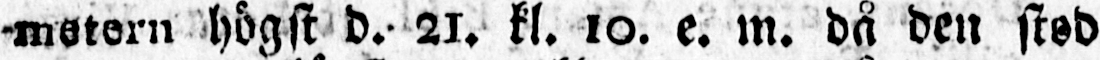metern högst d. 21. kl. 10. e. m. då den stod
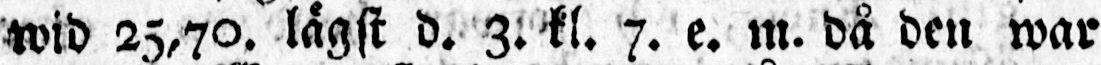wid 25,70. lågst d. 3. kl. 7. e. m. då den war
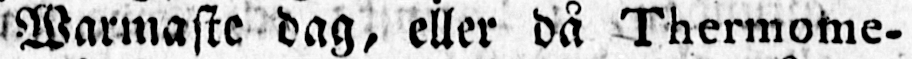24,72. Warmaste dag, eller då Thermome-
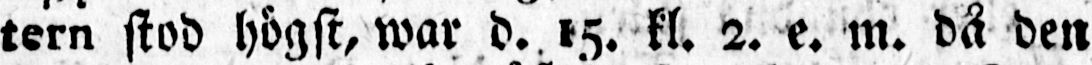tern stod högst, war d. 15. kl. 2. e. m. då den
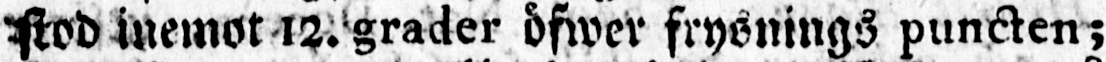stod inemot l2. grader öfwer frysnings puncten;
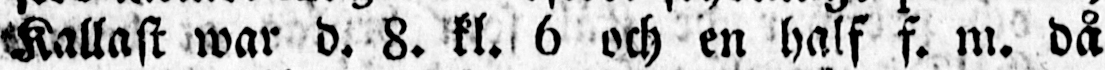Kallast war d. 8. kl. 6 och en half f. m. då
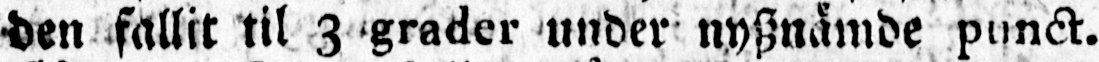den fallit til 3 grader under nysznämde punct.
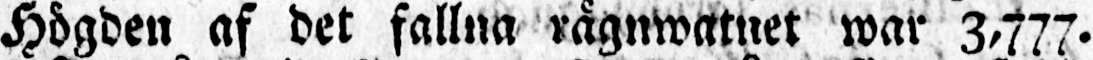Högden af det fallna rägnwatnet war 3,777.
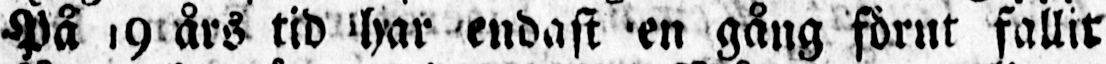På 9 års tid har endast en gång förut fallit
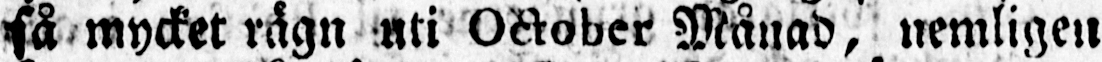så mycket rägn uti October Månad, nemligen
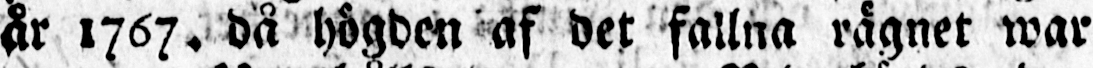år 1767. då högden af det fallna rägnet war
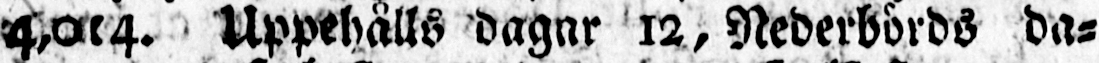4,014. Uppehålls dagar 12, Nederbörds da-
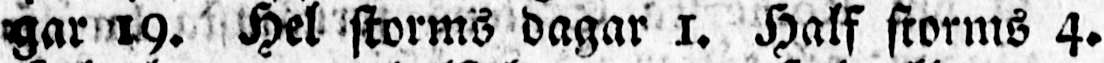gar 19. Hel storms dagar 1. Half storms 4.
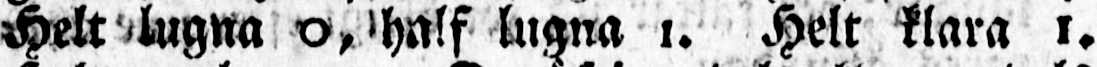Helt lugna 0, half lugna 1. Helt klara l.
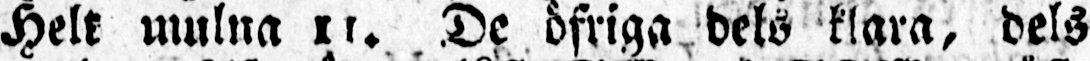Helt mulna 11. De öfriga dels klara, dels
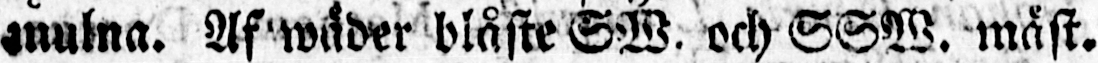mulna. Af wäder blåste SW. och SSW. mäst.
